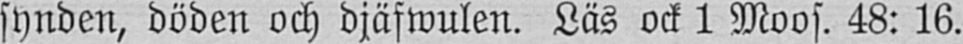synden, döden och djäfwulen. Läs ock 1 Moos. 48: 16.
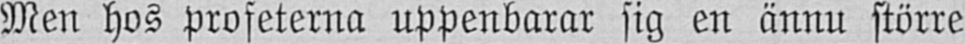Men hos profeterna uppenbarar sig en ännu större
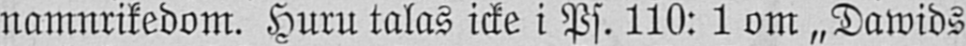namnrikedom. Huru talas icke i Ps. 110: 1 om „Dawids
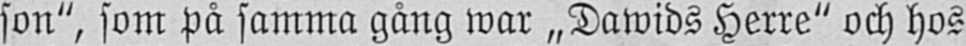son", som på samma gång war „Dawids Herre" och hos
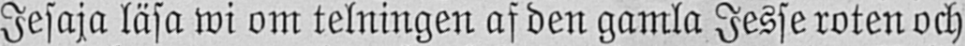Jesaja läsa wi om telningen af den gamla Jesse roten och
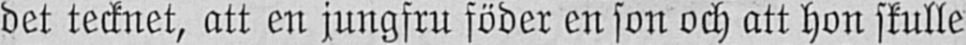det tecknet, att en jungfru föder en son och att hon skulle
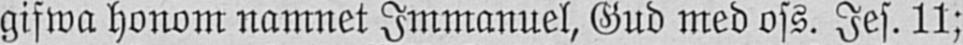gifwa honom namnet Immanuel, Gud med oss. Jes. 11;
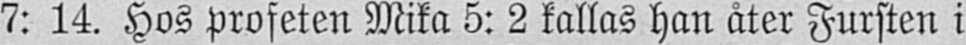7: 14. Hos profeten Mika 5: 2 kallas han åter Fursten i
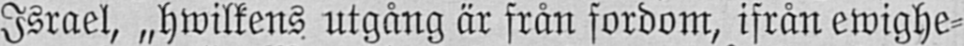Israel, „hwilkens utgång är från fordom, ifrån ewighe-
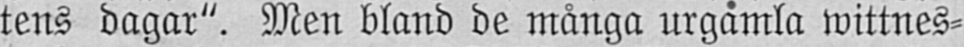tens dagar". Men bland de många urgamla wittnes-
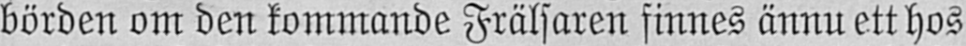börden om den kommande Frälsaren finnes ännu ett hos
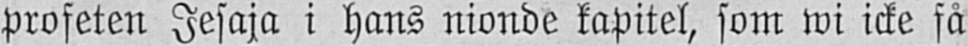profeten Jesaja i hans nionde kapitel, som wi icke få
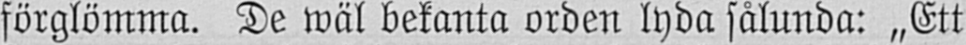förglömma. De wäl bekanta orden lyda sålunda: „Ett
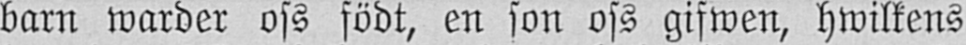barn warder oss födt, en son oss gifwen, hwilkens
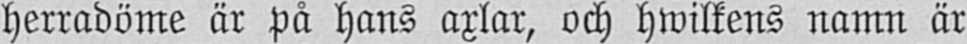herradöme är på hans axlar, och hwilkens namn är
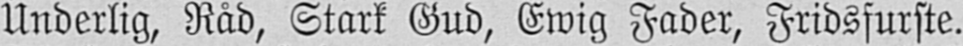Underlig, Råd, Stark Gud, Ewig Fader, Fridsfurste.
